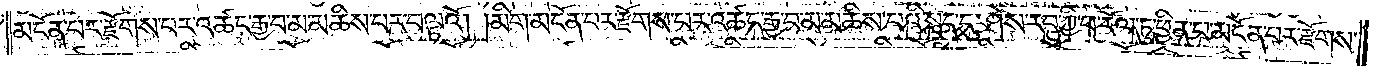མངོན་པར་རྫོགས་པར་འཚང་རྒྱ་བ་མ་མཆིས་པར་བལྟའོ། །མིག་མངོན་པར་རྫོགས་པར་འཚང་རྒྱ་བ་མ་མཆིས་པའི་སླད་དུ་ཤེས་རབ་ཀྱི་ཕ་རོལ་ཏུ་ཕྱིན་པ་མངོན་པར་རྫོགས་
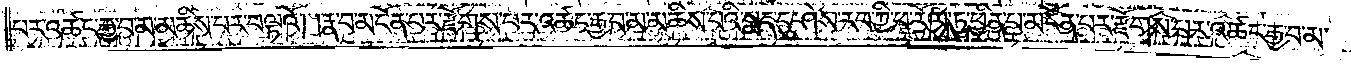པར་འཚང་རྒྱ་བ་མ་མཆིས་པར་བལྟའོ། །རྣ་བ་མངོན་པར་རྫོགས་པར་འཚང་རྒྱ་བ་མ་མཆིས་པའི་སླད་དུ་ཤེས་རབ་ཀྱི་ཕ་རོལ་ཏུ་ཕྱིན་པ་མངོན་པར་རྫོགས་པར་འཚང་རྒྱ་བ་མ་
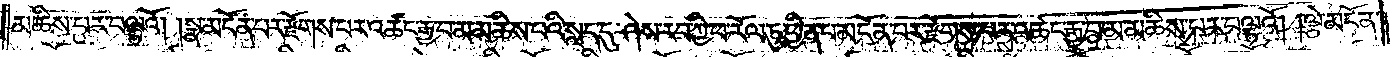མཆིས་པར་བལྟའོ། །སྣ་མངོན་པར་རྫོགས་པར་འཚང་རྒྱ་བ་མ་མཆིས་པའི་སླད་དུ་ཤེས་རབ་ཀྱི་ཕ་རོལ་ཏུ་ཕྱིན་པ་མངོན་པར་རྫོགས་པར་འཚང་རྒྱ་བ་མ་མཆིས་པར་བལྟའོ། །ལྕེ་མངོན་
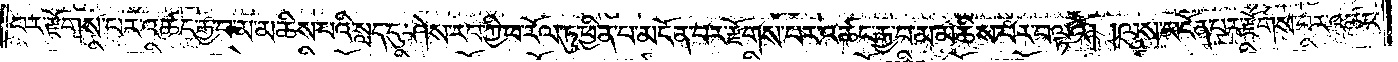པར་རྫོགས་པར་འཚང་རྒྱ་བ་མ་མཆིས་པའི་སླད་དུ་ཤེས་རབ་ཀྱི་ཕ་རོལ་ཏུ་ཕྱིན་པ་མངོན་པར་རྫོགས་པར་འཚང་རྒྱ་བ་མ་མཆིས་པར་བལྟའོ། །ལུས་མངོན་པར་རྫོགས་པར་འཚང་
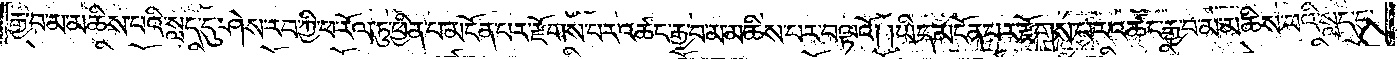རྒྱ་བ་མ་མཆིས་པའི་སླད་དུ་ཤེས་རབ་ཀྱི་ཕ་རོལ་ཏུ་ཕྱིན་པ་མངོན་པར་རྫོགས་པར་འཚང་རྒྱ་བ་མ་མཆིས་པར་བལྟའོ། །ཡིད་མངོན་པར་རྫོགས་པར་འཚང་རྒྱ་བ་མ་མཆིས་པའི་སླད་དུ་
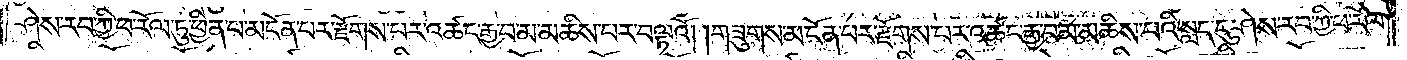ཤེས་རབ་ཀྱི་ཕ་རོལ་ཏུ་ཕྱིན་པ་མངོན་པར་རྫོགས་པར་འཚང་རྒྱ་བ་མ་མཆིས་པར་བལྟའོ། །གཟུགས་མངོན་པར་རྫོགས་པར་འཚང་རྒྱ་བ་མ་མཆིས་པའི་སླད་དུ་ཤེས་རབ་ཀྱི་ཕ་རོལ་
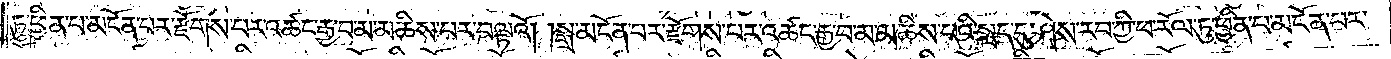ཏུ་ཕྱིན་པ་མངོན་པར་རྫོགས་པར་འཚང་རྒྱ་བ་མ་མཆིས་པར་བལྟའོ། །སྒྲ་མངོན་པར་རྫོགས་པར་འཚང་རྒྱ་བ་མ་མཆིས་པའི་སླད་དུ་ཤེས་རབ་ཀྱི་ཕ་རོལ་ཏུ་ཕྱིན་པ་མངོན་པར་
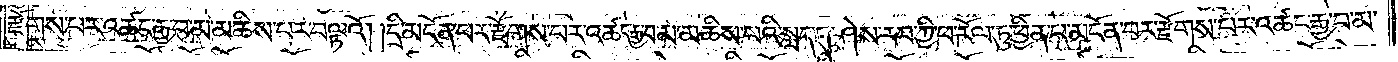རྫོགས་པར་འཚང་རྒྱ་བ་མ་མཆིས་པར་བལྟའོ། །དྲི་མངོན་པར་རྫོགས་པར་འཚང་རྒྱ་བ་མ་མཆིས་པའི་སླད་དུ་ཤེས་རབ་ཀྱི་ཕ་རོལ་ཏུ་ཕྱིན་པ་མངོན་པར་རྫོགས་པར་འཚང་རྒྱ་བ་མ་
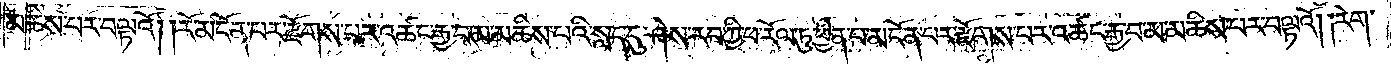མཆིས་པར་བལྟའོ། །རོ་མངོན་པར་རྫོགས་པར་འཚང་རྒྱ་བ་མ་མཆིས་པའི་སླད་དུ་ཤེས་རབ་ཀྱི་ཕ་རོལ་ཏུ་ཕྱིན་པ་མངོན་པར་རྫོགས་པར་འཚང་རྒྱ་བ་མ་མཆིས་པར་བལྟའོ། །རེག་
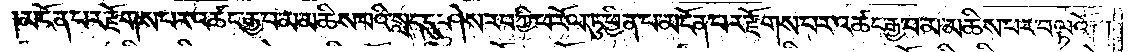མངོན་པར་རྫོགས་པར་འཚང་རྒྱ་བ་མ་མཆིས་པའི་སླད་དུ་ཤེས་རབ་ཀྱི་ཕ་རོལ་ཏུ་ཕྱིན་པ་མངོན་པར་རྫོགས་པར་འཚང་རྒྱ་བ་མ་མཆིས་པར་བལྟའོ། །
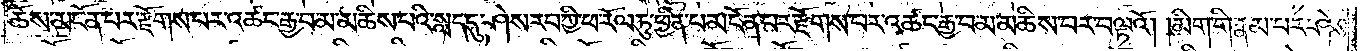ཆོས་མངོན་པར་རྫོགས་པར་འཚང་རྒྱ་བ་མ་མཆིས་པའི་སླད་དུ་ཤེས་རབ་ཀྱི་ཕ་རོལ་ཏུ་ཕྱིན་པ་མངོན་པར་རྫོགས་པར་འཚང་རྒྱ་བ་མ་མཆིས་པར་བལྟའོ། །མིག་གི་རྣམ་པར་ཤེས་
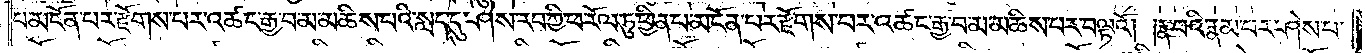པ་མངོན་པར་རྫོགས་པར་འཚང་རྒྱ་བ་མ་མཆིས་པའི་སླད་དུ་ཤེས་རབ་ཀྱི་ཕ་རོལ་ཏུ་ཕྱིན་པ་མངོན་པར་རྫོགས་པར་འཚང་རྒྱ་བ་མ་མཆིས་པར་བལྟའོ། །རྣ་བའི་རྣམ་པར་ཤེས་པ་
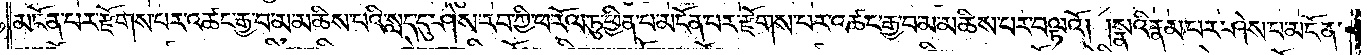མངོན་པར་རྫོགས་པར་འཚང་རྒྱ་བ་མ་མཆིས་པའི་སླད་དུ་ཤེས་རབ་ཀྱི་ཕ་རོལ་ཏུ་ཕྱིན་པ་མངོན་པར་རྫོགས་པར་འཚང་རྒྱ་བ་མ་མཆིས་པར་བལྟའོ། །སྣའི་རྣམ་པར་ཤེས་པ་མངོན་
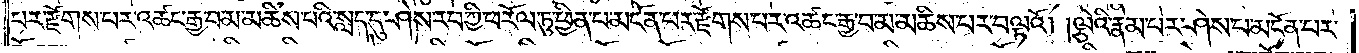པར་རྫོགས་པར་འཚང་རྒྱ་བ་མ་མཆིས་པའི་སླད་དུ་ཤེས་རབ་ཀྱི་ཕ་རོལ་ཏུ་ཕྱིན་པ་མངོན་པར་རྫོགས་པར་འཚང་རྒྱ་བ་མ་མཆིས་པར་བལྟའོ། །ལྕེའི་རྣམ་པར་ཤེས་པ་མངོན་པར་
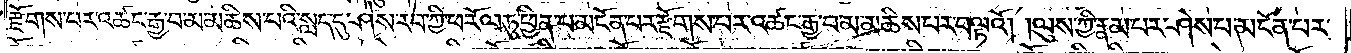རྫོགས་པར་འཚང་རྒྱ་བ་མ་མཆིས་པའི་སླད་དུ་ཤེས་རབ་ཀྱི་ཕ་རོལ་ཏུ་ཕྱིན་པ་མངོན་པར་རྫོགས་པར་འཚང་རྒྱ་བ་མ་མཆིས་པར་བལྟའོ། །ལུས་ཀྱི་རྣམ་པར་ཤེས་པ་མངོན་པར་
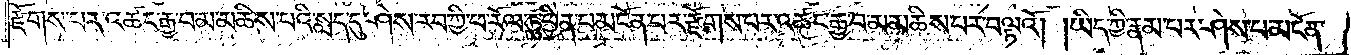རྫོགས་པར་འཚང་རྒྱ་བ་མ་མཆིས་པའི་སླད་དུ་ཤེས་རབ་ཀྱི་ཕ་རོལ་ཏུ་ཕྱིན་པ་མངོན་པར་རྫོགས་པར་འཚང་རྒྱ་བ་མ་མཆིས་པར་བལྟའོ། །ཡིད་ཀྱི་རྣམ་པར་ཤེས་པ་མངོན་
